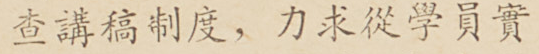查講稿制度，力求從學員實
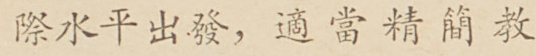際水平出發，適當精簡教
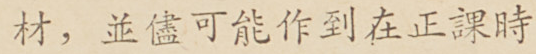材，並儘可能作到在正課時
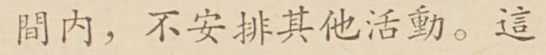間內，不安排其他活動。這
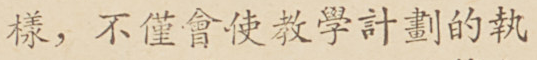樣，不僅會使教學計劃的執
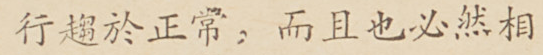行趨於正常，而且也必然相
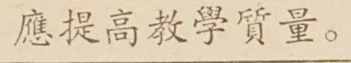應提高教學質量。
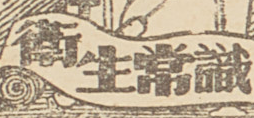衛生常識
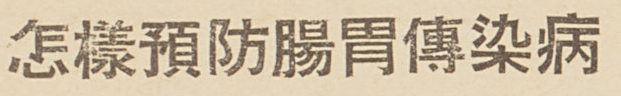怎樣預防腸胃傳染病
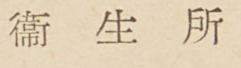衛 生 所
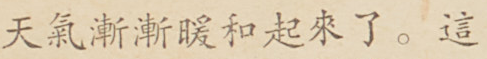天氣漸漸暖和起來了。這
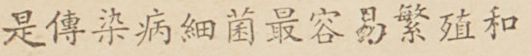是傳染病細菌最容易繁殖和
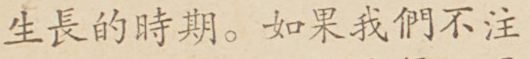省長的時期。如果我們不注
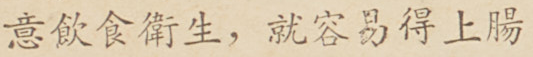意飲食衛生，就容易得上腸
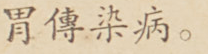胃傳染病。
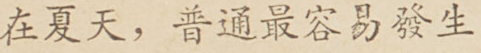在夏天，普通最容易發生
